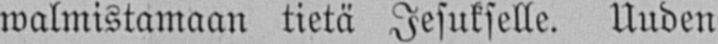walmistamaan tietä Jesukselle. Uuden
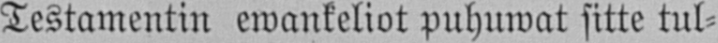Testamentin ewankeliot puhuwat sitte tul-
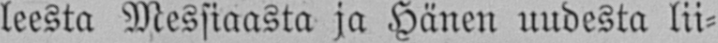leesta Messiaasta ja Hänen uudesta lii-
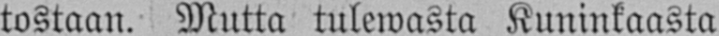tostaan. Mutta tulewasta Kuninkaasta
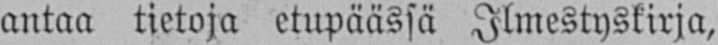antaa tietoja etupäässä Ilmestyskirja,
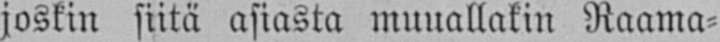joskin siitä asiasta muuallakin Raama-
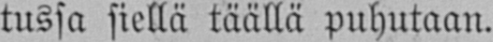tussa siellä täällä puhutaan.
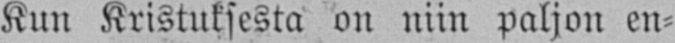Kun Kristuksesta on niin paljon en-
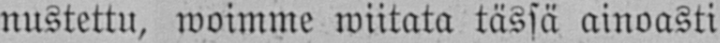nustettu, woimme wiitata tässä ainoasti
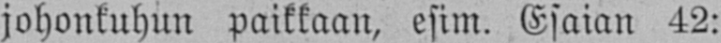johonkuhun paikkaan, esim. Esaian 42:
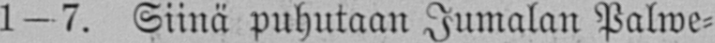1 — 7. Siinä puhutaan Jumalan Palwe-
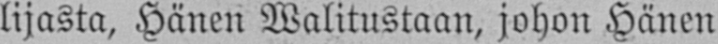lijasta, Hänen Walitustaan, johon Hänen
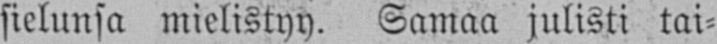sielunsa mielistyy. Samaa julisti tai-
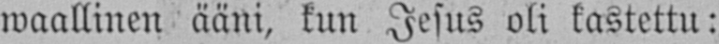waallinen ääni, kun Jesus oli kastettu:
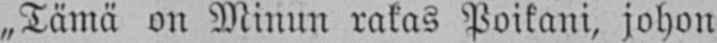„Tämä on Minun rakas Poikani, johon
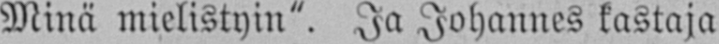Minä mielistyin". Ja Johannes kastaja
